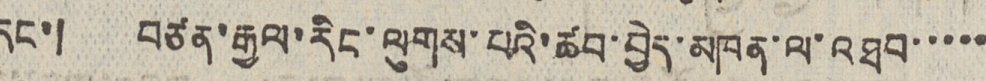དང་། བཙན་རྒྱལ་རིང་ལུགས་པའི་ཚབ་བྱེད་མཁན་ལ་འཐབ་་་་་
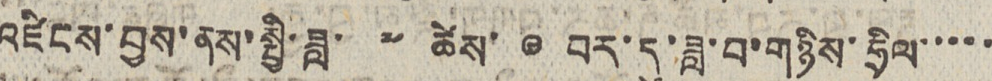འཛིངས་བྱས་ནས་སྤྱི་ཟླ་ ༧ ཚེས་ ༩ བར་དུ་ཟླ་བ་གཉིས་ཧྲིལ་་་་་
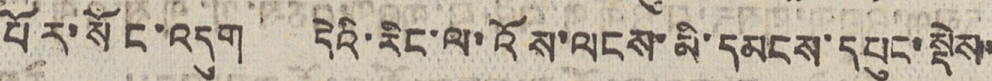པོར་སོང་འདུག དེའི་རིང་ལ་འོས་ལངས་མི་དམངས་དཔུང་སྡེས་
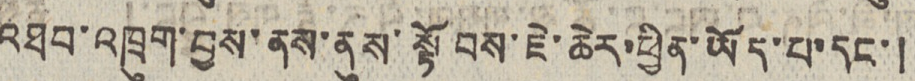འཐབ་འཁྲུག་བྱས་ནས་ནུས་སྟོབས་ཇེ་ཆེར་ཕྱིན་ཡོད་པ་དང་།
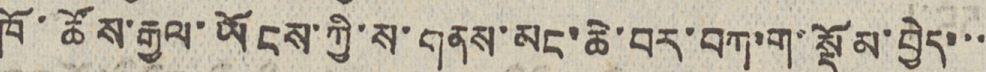ཁོ་ཚོས་རྒྱལ་ཡོངས་ཀྱི་ས་གནས་མང་ཆེ་བར་བཀ་ག་སྡོམ་བྱེད་་་
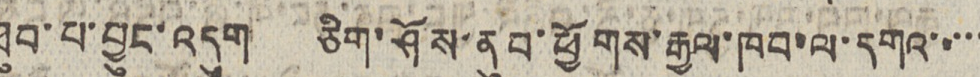ཐུབ་པ་བྱུང་འདུག ཅིག་ཤོས་ནུབ་ཕྱོགས་རྒྱལ་ཁབ་ལ་དགའ་་་་་
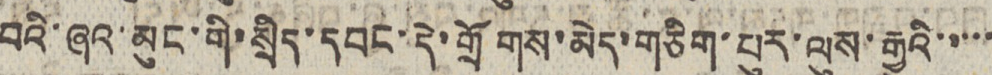བའི་ཞའ་མུང་གི་སྲིད་དབང་དེ་གྲོགས་མེད་གཅིག་པུར་ལུས་རྒྱུའི་་་་་
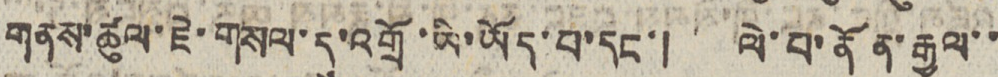གནས་ཚུལ་ཇེ་གསལ་དུ་འགྲོ་ཡི་ཡོད་པ་དང་། ལེ་པ་ནོན་རྒྱལ་་
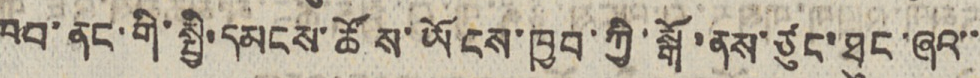ཁབ་ནང་གི་སྤྱི་དམངས་ཚོས་ཡོངས་ཁྱབ་ཀྱི་སྒོ་ནས་ཙུང་ཐུང་ཞའ་་་
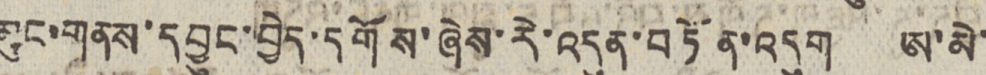མུང་གནས་དབྱུང་བྱེད་དགོས་ཞེས་རེ་འདུན་བཏོན་འདུག ཨ་མེ་
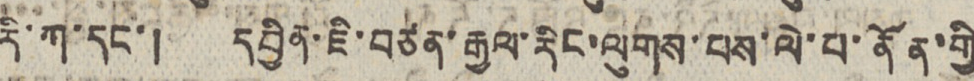རི་ཀ་དང་། དབྱིན་ཇི་བཙན་རྒྱལ་རིང་ལུགས་པས་ལེ་པ་ནོན་གྱི་
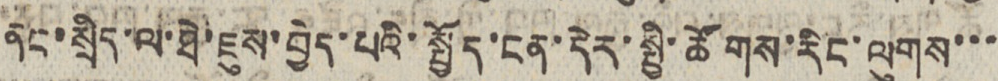ནང་སྲིད་ལ་ཐེ་ཇུས་བྱེད་པའི་སྤྱོད་ངན་དེར་སྤྱི་ཚོགས་རིང་ལུགས་་་
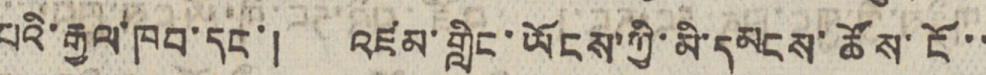པའི་རྒྱལ་ཁབ་དང་། འཛམ་གླིང་ཡོངས་ཀྱི་མི་དམངས་ཚོས་ངོ་་
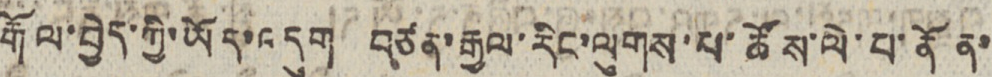རྒོལ་བྱེད་ཀྱི་ཡོད་འདུག བཙན་རྒྱལ་རིང་ལུགས་པ་ཚོས་ལེ་པ་ནོན་
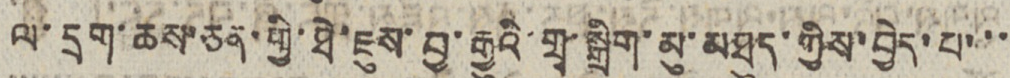ལ་དྲག་ཆས་ཅན་གྱི་ཐེ་ཇུས་བྱ་རྒྱུའི་གྲྭ་སྒྲིག་མུ་མཐུད་ཀྱིས་བྱེད་པ་་་
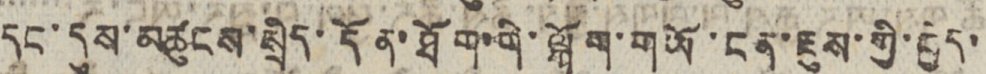དང་དུས་མཚུངས་སྲིད་དོན་ཐོག་གི་ལྐོག་གཡོ་ངན་ཇུས་གྱི་ཁྱེད་་
